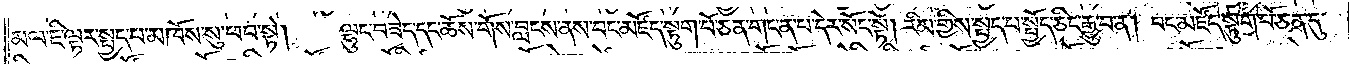མལ་ཇི་ལྟར་སྤྱད་པ་མཁོས་སུ་ཕབ་སྟེ།    ལྷུང་བཟེད་དང་ཆོས་གོས་བླངས་ནས་བང་མཛོད་སྟུག་པོ་ཅན་གང་ན་པ་དེར་སོང་སྟེ། རིམ་གྱིས་སྤྱད་པ་སྤྱོད་ཅིང་རྒྱུ་བ་ན། བང་མཛོད་སྟུག་པོ་ཅན་དུ་
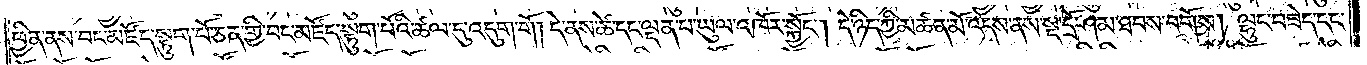ཕྱིན་ནས་བང་མཛོད་སྟུག་པོ་ཅན་གྱི་བང་མཛོད་སྟུག་པོའི་ཚལ་དུ་འདུག་གོ། དེ་ནས་ཚེ་དང་ལྡན་པ་ཡུལ་འཁོར་སྐྱོང༌། དེ་ཉིད་ཀྱི་མཚན་མོ་འདས་ནས་སྔ་དྲོ་ཤམ་ཐབས་བགོས། ལྷུང་བཟེད་དང་
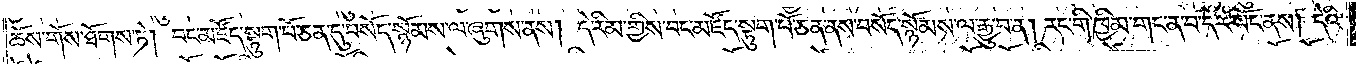ཆོས་གོས་ཐོགས་ཏེ། བང་མཛོད་སྟུག་པོ་ཅན་དུ་བསོད་སྙོམས་ལ་ཞུགས་ནས། དེ་རིམ་གྱིས་བང་མཛོད་སྟུག་པོ་ཅན་ནས་བསོད་སྙོམས་ལ་རྒྱུ་བ་ན། རང་གི་ཁྱིམ་གང་ན་བ་དེར་སོང་ནས། དེའི་
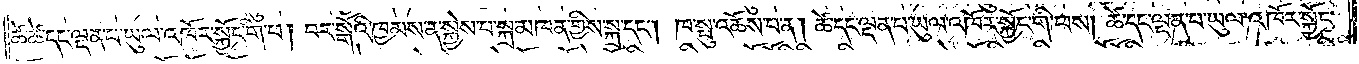ཚེ་ཚེ་དང་ལྡན་པ་ཡུལ་འཁོར་སྐྱོང་གི་ཕ། བར་སྒོའི་ཁྱམས་ན་སྐྱེས་པ་སྐྲ་མཁན་གྱིས་སྐྲ་དང༌། ཁ་སྤུ་འཆོས་པ་ན། ཚེ་དང་ལྡན་པ་ཡུལ་འཁོར་སྐྱོང་གི་ཕས། ཚེ་དང་ལྡན་པ་ཡུལ་འཁོར་སྐྱོང་
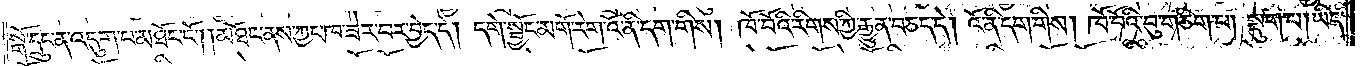སྒོ་དྲུང་ན་འདུག་པ་མཐོང་ངོ༌། །མཐོང་ནས་ཀྱང་ཁ་ཟེར་བར་བྱེད་དེ། དགེ་སྦྱོང་མགོ་རེག་འོ་ནི་དག་གིས། ཁོ་བོའི་རིགས་ཀྱི་རྒྱུན་བཅད་དེ། འོ་ན་དག་གིས། ཁོ་བོའི་བུ་གཅིག་པ། སྡུག་པ། ཡིད་
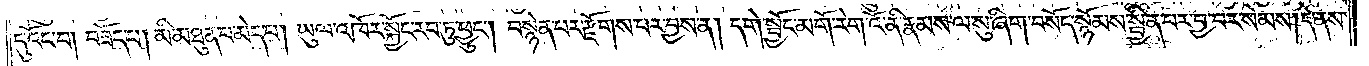དུ་འོང་བ། བཟོད་པ། མི་མཐུན་པ་མེད་པ། ཡུལ་འཁོར་སྐྱོང་རབ་ཏུ་ཕྱུང༌། བསྙེན་པར་རྫོགས་པར་བྱས་ན། དགེ་སྦྱོང་མགོ་རེག་འོ་ནི་རྣམས་ལ་སུ་ཞིག་བསོད་སྙོམས་སྦྱིན་པར་བྱ་བར་སེམས། དེ་ནས་
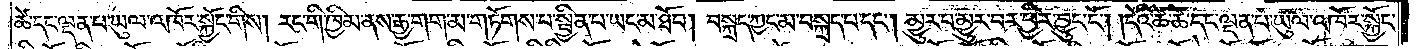ཚེ་དང་ལྡན་པ་ཡུལ་འཁོར་སྐྱོང་གིས། རང་གི་ཁྱིམ་ནས་རྒྱ་གག་མ་གཏོགས་པ་སྦྱིན་པ་ཡང་མ་ཐོབ། བསྐྲད་ཀྱང་མ་བསྐྲད་པ་དང༌། མྱུར་བ་མྱུར་བར་ཕྱིར་བྱུང་ངོ༌། །དེའི་ཚེ་ཚེ་དང་ལྡན་པ་ཡུལ་འཁོར་སྐྱོང་
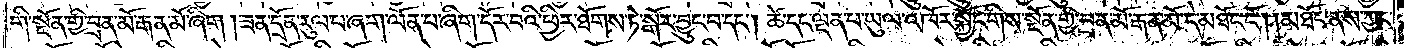གི་སྔོན་གྱི་བྲན་མོ་རྒན་མོ་ཞིག །ཟན་དྲོན་རུལ་པ་ཞག་ལོན་པ་ཞིག་དོར་བའི་ཕྱིར་ཐོགས་ཏེ་སྒོར་བྱུང་བ་དང༌། ཚེ་དང་ལྡན་པ་ཡུལ་འཁོར་སྐྱོང་གིས་སྔོན་གྱི་བྲན་མོ་རྒན་མོ་དེ་མཐོང་ངོ༌། །མཐོང་ནས་ཀྱང་
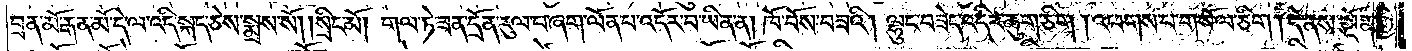བྲན་མོ་རྒན་མོ་དེ་ལ་འདི་སྐད་ཅེས་སྨྲས་སོ། །སྲིང་མོ། གལ་ཏེ་ཟན་དྲོན་རུལ་བ་ཞག་ལོན་པ་འདོར་བ་ཡིན་ན། ཁོ་བོས་བཟའི། ལྷུང་བཟེད་འདིར་ཆུག་ཅིག །འཕགས་པ་གསོལ་ཅིག །དེ་ནས་སྔོན་གྱི་
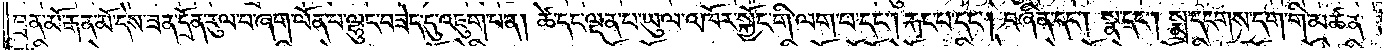བྲན་མོ་རྒན་མོ་དེས་ཟན་དྲོན་རུལ་པ་ཞག་ལོན་པ་ལྷུང་བཟེད་དུ་འཇུག་པ་ན། ཚེ་དང་ལྡན་པ་ཡུལ་འཁོར་སྐྱོང་གི་ལག་པ་དང༌། རྐང་པ་དང༌། བཞིན་དང༌། སྣ་དང༌། སྨྲ་དངགས་དག་གི་མཚན་
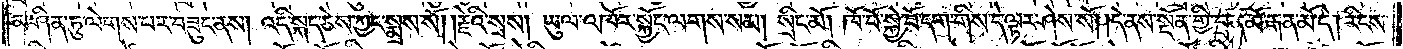མ་ཤིན་ཏུ་ལེགས་པར་བཟུང་ནས། འདི་སྐད་ཅེས་ཀྱང་སྨྲས་སོ། །རྗེའི་སྲས། ཡུལ་འཁོར་སྐྱོང་ལགས་སམ། སྲིང་མོ། །ཁོ་བོ་སྐྱེ་བོ་དག་གིས་དེ་ལྟར་ཤེས་སོ། །དེ་ནས་སྔོན་གྱི་བྲན་མོ་རྒན་མོ་དེ། རིངས་
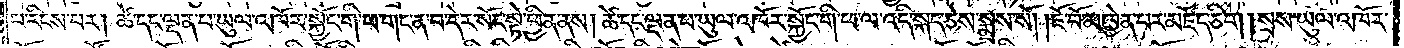པ་རིངས་པར། ཚེ་དང་ལྡན་པ་ཡུལ་འཁོར་སྐྱོང་གི་ཕ་གང་ན་བ་དེར་སོང་སྟེ་ཕྱིན་ནས། ཚེ་དང་ལྡན་པ་ཡུལ་འཁོར་སྐྱོང་གི་ཕ་ལ་འདི་སྐད་ཅེས་སྨྲས་སོ། །ཇོ་བོ་མཁྱེན་པར་མཛོད་ཅིག། སྲས་ཡུལ་འཁོར་
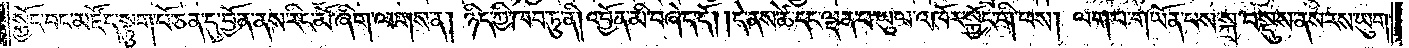སྐྱོང་བང་མཛོད་སྟུག་པོ་ཅན་དུ་བྱོན་ནས་རིང་མོ་ཞིག་ལགས་ན། ཉིད་ཀྱི་ཁབ་ཏུ་ནི། འབྱོན་མི་བཞེད་དོ། །དེ་ནས་ཚེ་དང་ལྡན་པ་ཡུལ་འཁོར་སྐྱོང་གི་ཕས། ལག་པ་གཡོན་པས་སྐྲ་བསྡུས་ནས་རས་ཡུག་
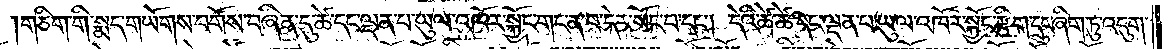གཅིག་གི་སྨད་གཡོགས་བགོས་བཞིན་དུ་ཚེ་དང་ལྡན་པ་ཡུལ་འཁོར་སྐྱོང་གང་ན་བ་དེར་སོང་བ་དང༌། དེའི་ཚེ་ཚེ་དང་ལྡན་པ་ཡུལ་འཁོར་སྐྱོང་རྩིག་དྲུང་ཞིག་ཏུ་འདུག་
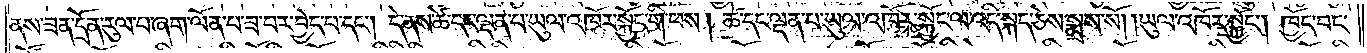ནས་ཟན་དྲོན་རུལ་པ་ཞག་ལོན་པ་ཟ་བར་བྱེད་པ་དང༌། དེ་ནས་ཚེ་དང་ལྡན་པ་ཡུལ་འཁོར་སྐྱོང་གི་ཕས། ཚེ་དང་ལྡན་པ་ཡུལ་འཁོར་སྐྱོང་ལ་འདི་སྐད་ཅེས་སྨྲས་སོ། །ཡུལ་འཁོར་སྐྱོང༌། ཁྱོད་བང་
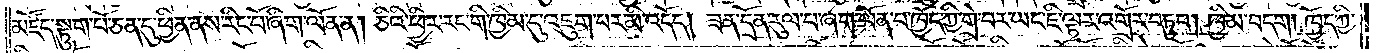མཛོད་སྟུག་པོ་ཅན་དུ་ཕྱིན་ནས་རིང་པོ་ཞིག་ལོན་ན། ཅིའི་ཕྱིར་རང་གི་ཁྱིམ་དུ་འཇུག་པར་མི་འདོད། ཟན་དྲོན་རུལ་བ་ཞག་ལོན་པ་ཁྱོད་ཀྱི་གྲེ་བར་ཡང་ཇི་ལྟར་འགྲོར་བཏུབ། ཁྱིམ་བདག། ཁྱོད་ཀྱི་
